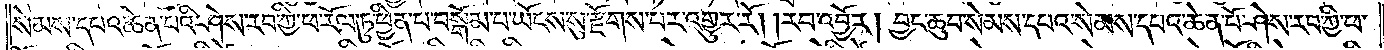སེམས་དཔའ་ཆེན་པོའི་ཤེས་རབ་ཀྱི་ཕ་རོལ་ཏུ་ཕྱིན་པ་བསྒོམ་པ་ཡོངས་སུ་རྫོགས་པར་འགྱུར་རོ། །རབ་འབྱོར། བྱང་ཆུབ་སེམས་དཔའ་སེམས་དཔའ་ཆེན་པོ་ཤེས་རབ་ཀྱི་ཕ་
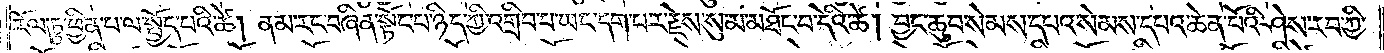རོལ་ཏུ་ཕྱིན་པ་ལ་སྤྱོད་པའི་ཚེ། ནམ་རང་བཞིན་སྟོང་པ་ཉིད་ཀྱི་འགྲིབ་པ་ཡང་དག་པར་རྗེས་སུ་མ་མཐོང་བ་དེའི་ཚེ། བྱང་ཆུབ་སེམས་དཔའ་སེམས་དཔའ་ཆེན་པོའི་ཤེས་རབ་ཀྱི་
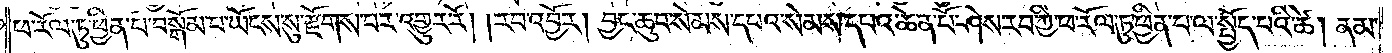ཕ་རོལ་ཏུ་ཕྱིན་པ་བསྒོམ་པ་ཡོངས་སུ་རྫོགས་པར་འགྱུར་རོ། །རབ་འབྱོར། བྱང་ཆུབ་སེམས་དཔའ་སེམས་དཔའ་ཆེན་པོ་ཤེས་རབ་ཀྱི་ཕ་རོལ་ཏུ་ཕྱིན་པ་ལ་སྤྱོད་པའི་ཚེ། ནམ་
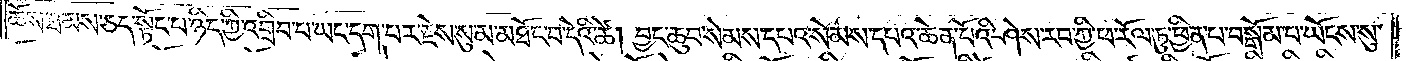ཆོས་ཐམས་ཅད་སྟོང་པ་ཉིད་ཀྱི་འགྲིབ་པ་ཡང་དག་པར་རྗེས་སུ་མ་མཐོང་བ་དེའི་ཚེ། བྱང་ཆུབ་སེམས་དཔའ་སེམས་དཔའ་ཆེན་པོའི་ཤེས་རབ་ཀྱི་ཕ་རོལ་ཏུ་ཕྱིན་པ་བསྒོམ་པ་ཡོངས་སུ་
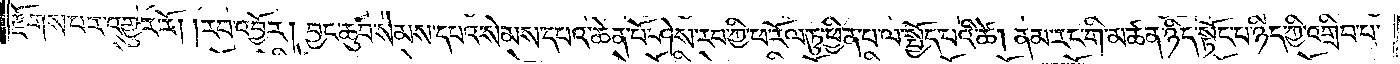རྫོགས་པར་འགྱུར་རོ། །རབ་འབྱོར། བྱང་ཆུབ་སེམས་དཔའ་སེམས་དཔའ་ཆེན་པོ་ཤེས་རབ་ཀྱི་ཕ་རོལ་ཏུ་ཕྱིན་པ་ལ་སྤྱོད་པའི་ཚེ། ནམ་རང་གི་མཚན་ཉིད་སྟོང་པ་ཉིད་ཀྱི་འགྲིབ་པ་
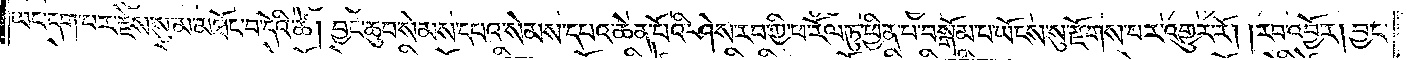ཡང་དག་པར་རྗེས་སུ་མ་མཐོང་བ་དེའི་ཚེ། བྱང་ཆུབ་སེམས་དཔའ་སེམས་དཔའ་ཆེན་པོའི་ཤེས་རབ་ཀྱི་ཕ་རོལ་ཏུ་ཕྱིན་པ་བསྒོམ་པ་ཡོངས་སུ་རྫོགས་པར་འགྱུར་རོ། །རབ་འབྱོར། བྱང་
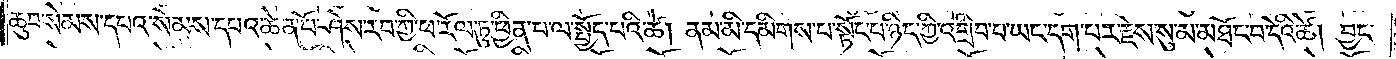ཆུབ་སེམས་དཔའ་སེམས་དཔའ་ཆེན་པོ་ཤེས་རབ་ཀྱི་ཕ་རོལ་ཏུ་ཕྱིན་པ་ལ་སྤྱོད་པའི་ཚེ། ནམ་མི་དམིགས་པ་སྟོང་པ་ཉིད་ཀྱི་འགྲིབ་པ་ཡང་དག་པར་རྗེས་སུ་མ་མཐོང་བ་དེའི་ཚེ། བྱང་
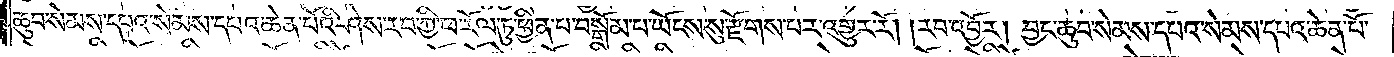ཆུབ་སེམས་དཔའ་སེམས་དཔའ་ཆེན་པོའི་ཤེས་རབ་ཀྱི་ཕ་རོལ་ཏུ་ཕྱིན་པ་བསྒོམ་པ་ཡོངས་སུ་རྫོགས་པར་འགྱུར་རོ། །རབ་འབྱོར། བྱང་ཆུབ་སེམས་དཔའ་སེམས་དཔའ་ཆེན་པོ་
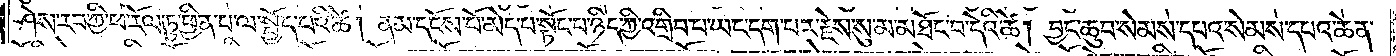ཤེས་རབ་ཀྱི་ཕ་རོལ་ཏུ་ཕྱིན་པ་ལ་སྤྱོད་པའི་ཚེ། ནམ་དངོས་པོ་མེད་པ་སྟོང་པ་ཉིད་ཀྱི་འགྲིབ་པ་ཡང་དག་པར་རྗེས་སུ་མ་མཐོང་བ་དེའི་ཚེ། བྱང་ཆུབ་སེམས་དཔའ་སེམས་དཔའ་ཆེན་
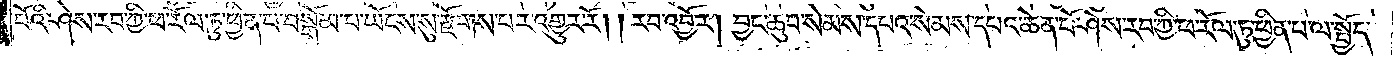པོའི་ཤེས་རབ་ཀྱི་ཕ་རོལ་ཏུ་ཕྱིན་པ་བསྒོམ་པ་ཡོངས་སུ་རྫོགས་པར་འགྱུར་རོ། །རབ་འབྱོར། བྱང་ཆུབ་སེམས་དཔའ་སེམས་དཔའ་ཆེན་པོ་ཤེས་རབ་ཀྱི་ཕ་རོལ་ཏུ་ཕྱིན་པ་ལ་སྤྱོད་
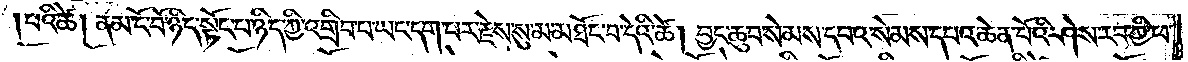པའི་ཚེ། ནམ་ངོ་བོ་ཉིད་སྟོང་པ་ཉིད་ཀྱི་འགྲིབ་པ་ཡང་དག་པར་རྗེས་སུ་མ་མཐོང་བ་དེའི་ཚེ། བྱང་ཆུབ་སེམས་དཔའ་སེམས་དཔའ་ཆེན་པོའི་ཤེས་རབ་ཀྱི་ཕ་
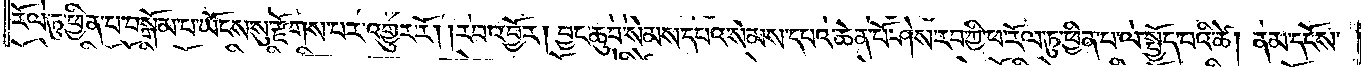རོལ་ཏུ་ཕྱིན་པ་བསྒོམ་པ་ཡོངས་སུ་རྫོགས་པར་འགྱུར་རོ། །རབ་འབྱོར། བྱང་ཆུབ་སེམས་དཔའ་སེམས་དཔའ་ཆེན་པོ་ཤེས་རབ་ཀྱི་ཕ་རོལ་ཏུ་ཕྱིན་པ་ལ་སྤྱོད་པའི་ཚེ། ནམ་དངོས་
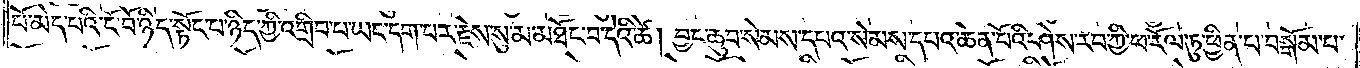པོ་མེད་པའི་ངོ་བོ་ཉིད་སྟོང་པ་ཉིད་ཀྱི་འགྲིབ་པ་ཡང་དག་པར་རྗེས་སུ་མ་མཐོང་བ་དེའི་ཚེ། བྱང་ཆུབ་སེམས་དཔའ་སེམས་དཔའ་ཆེན་པོའི་ཤེས་རབ་ཀྱི་ཕ་རོལ་ཏུ་ཕྱིན་པ་བསྒོམ་པ་
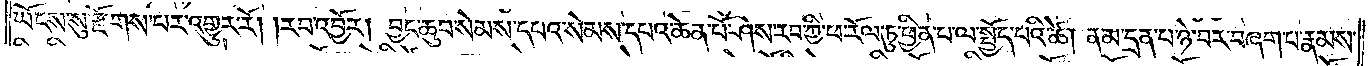ཡོངས་སུ་རྫོགས་པར་འགྱུར་རོ། །རབ་འབྱོར། བྱང་ཆུབ་སེམས་དཔའ་སེམས་དཔའ་ཆེན་པོ་ཤེས་རབ་ཀྱི་ཕ་རོལ་ཏུ་ཕྱིན་པ་ལ་སྤྱོད་པའི་ཚེ། ནམ་དྲན་པ་ཉེ་བར་བཞག་པ་རྣམས་
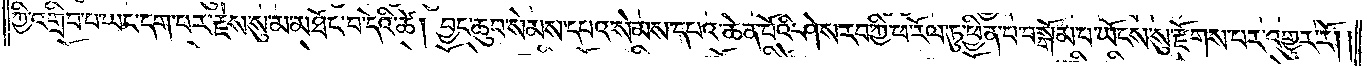ཀྱི་འགྲིབ་པ་ཡང་དག་པར་རྗེས་སུ་མ་མཐོང་བ་དེའི་ཚེ། བྱང་ཆུབ་སེམས་དཔའ་སེམས་དཔའ་ཆེན་པོའི་ཤེས་རབ་ཀྱི་ཕ་རོལ་ཏུ་ཕྱིན་པ་བསྒོམ་པ་ཡོངས་སུ་རྫོགས་པར་འགྱུར་རོ། །
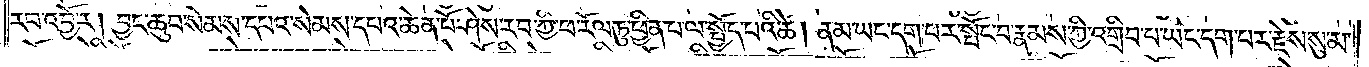རབ་འབྱོར། བྱང་ཆུབ་སེམས་དཔའ་སེམས་དཔའ་ཆེན་པོ་ཤེས་རབ་ཀྱི་ཕ་རོལ་ཏུ་ཕྱིན་པ་ལ་སྤྱོད་པའི་ཚེ། ནམ་ཡང་དག་པར་སྤོང་བ་རྣམས་ཀྱི་འགྲིབ་པ་ཡང་དག་པར་རྗེས་སུ་མ་
